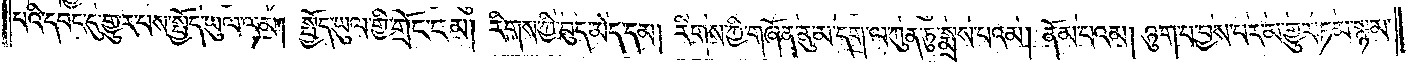པའི་དབང་དུ་གྱུར་པས་སྤྱོད་ཡུལ་ལམ། སྤྱོད་ཡུལ་གྱི་གྲོང་ངམ། རིགས་ཀྱི་བུད་མེད་དམ། རིགས་ཀྱི་གཞོན་ནུ་མ་དག་ལ་ཀུན་ཏུ་སྨྲས་པའམ། ནོམ་པའམ། ཉུག་པ་བྱས་པར་མ་གྱུར་ཏམ་སྙམ་
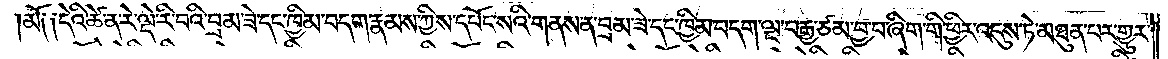མོ༏ ༏དེའི་ཚེ་ན་རེ་ལྡེ་རི་བའི་བྲམ་ཟེ་དང་ཁྱིམ་བདག་རྣམས་ཀྱིས་དཔོང་སའི་གནས་ན་བྲམ་ཟེ་དང་ཁྱིམ་བདག་ལྔ་བརྒྱ་ཙམ་བྱ་བ་ཞིག་གི་ཕྱིར་འདུས་ཏེ་མཐུན་པར་གྱུར་
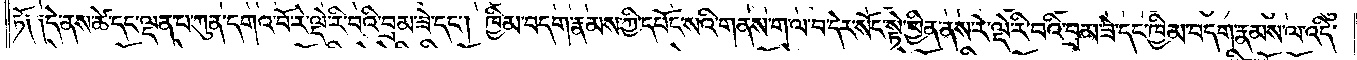ཏོ༑ ༑དེ་ནས་ཚེ་དང་ལྡན་པ་ཀུན་དགའ་བོ་རེ་ལྡེ་རི་བའི་བྲམ་ཟེ་དང༌། ཁྱིམ་བདག་རྣམས་ཀྱི་དཔོང་སའི་གནས་ག་ལ་བ་དེར་སོང་སྟེ་ཕྱིན་ནས་རེ་ལྡེ་རི་བའི་བྲམ་ཟེ་དང་ཁྱིམ་བདག་རྣམས་ལ་འདི་
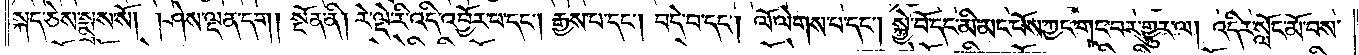སྐད་ཅེས་སྨྲས་སོ། །ཤེས་ལྡན་དག། སྔོན་ནི། རེ་ལྡེ་རི་འདི་འབྱོར་བ་དང༌། རྒྱས་པ་དང༌། བདེ་བ་དང༌། ལོ་ལེགས་པ་དང༌། སྐྱེ་བོ་དང་མི་མང་པོས་ཀྱང་གང་བར་གྱུར་ལ། འདིར་སློང་མོ་བས་
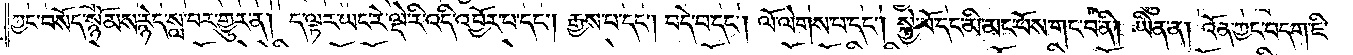ཀྱང་བསོད་སྙོམས་རྙེད་སླ་བར་གྱུར་ན། ད་ལྟར་ཡང་རེ་ལྡེ་རི་འདི་འབྱོར་བ་དང༌། རྒྱས་པ་དང༌། བདེ་བ་དང༌། ལོ་ལེགས་པ་དང༌། སྐྱེ་བོ་དང་མི་མང་པོས་གང་བ་ནི། ཡིན་ན། འོན་ཀྱང་བདག་ཇི་
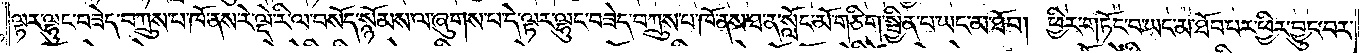ལྟར་ལྷུང་བཟེད་བཀྲུས་པ་ཁོ་ནས་རེ་ལྡེ་རི་ལ་བསོད་སྙོམས་ལ་ཞུགས་པ་དེ་ལྟར་ལྷུང་བཟེད་བཀྲུས་པ་ཁོ་ནས་ཐ་ན་སློང་མོ་གཅིག་སྦྱིན་པ་ཡང་མ་ཐོབ། ཕྱིར་གཏོང་བ་ཡང་མ་ཐོབ་པར་ཕྱིར་བྱུང་བར་
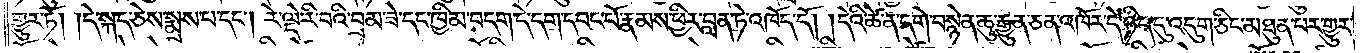གྱུར་ཏོ། །དེ་སྐད་ཅེས་སྨྲས་པ་དང༌། རེ་ལྡེ་རི་བའི་བྲམ་ཟེ་དང་ཁྱིམ་བདག་དེ་དག་དབང་པོ་རྣམས་ཕྱིར་བླན་ཏེ་འཁོད་དོ། །དེའི་ཚེ་ན་དགེ་བསྙེན་ཆུ་རྒྱུན་ཅན་འཁོར་དེ་ཉིད་དུ་འདུག་ཅིང་མཐུན་པར་གྱུར་
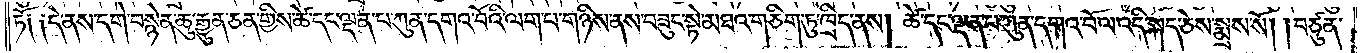ཏོ༏ ༏དེ་ནས་དགེ་བསྙེན་ཆུ་རྒྱུན་ཅན་གྱིས་ཚེ་དང་ལྡན་པ་ཀུན་དགའ་བོའི་ལག་པ་གཉིས་ནས་བཟུང་སྟེ་མཐའ་གཅིག་ཏུ་ཁྲིད་ནས། ཚེ་དང་ལྡན་པ་ཀུན་དགའ་བོ་ལ་འདི་སྐད་ཅེས་སྨྲས་སོ། །བཙུན་
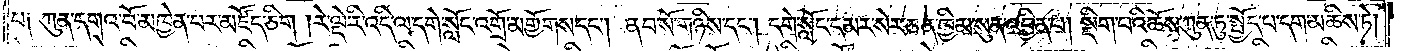པ༏ ཀུན་དགའ་བོ་མཁྱེན་པར་མཛོད་ཅིག །རེ་ལྡེ་རི་འདི་ལ་དགེ་སློང་འགྲོ་མགྱོགས་དང༌། ནབ་སོ་གཉིས་དང༌། དགེ་སློང་དམར་སེར་ཅན་ཁྱིམ་སུན་འབྱིན་པ། སྡིག་པའི་ཆོས་ཀུན་ཏུ་སྤྱོད་པ་དག་མཆིས་ཏེ།
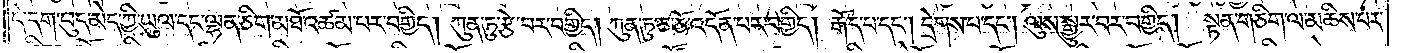དེ་དག་བུད་མེད་ཀྱི་ཡུལ་དང་ལྷན་ཅིག་མཐོ་འཚམ་པར་བགྱིད། ཀུན་ཏུ་རྩེ་བར་བགྱིད། ཀུན་ཏུ་ཅ་ཅོ་འདོན་པར་བགྱིད། རྒོད་པ་དང༌། དྲེགས་པ་དང༌། ལུས་སྒྱུར་བར་བགྱིད། སྟན་གཅིག་ལ་མཆིས་པར་
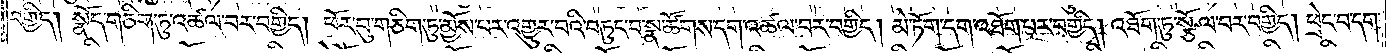བགྱིད། སྣོད་གཅིག་ཏུ་འཚལ་བར་བགྱིད། ཕོར་བུ་གཅིག་ཏུ་མྱོས་པར་འགྱུར་བའི་བཏུང་བ་སྣ་ཚོགས་དག་འཚལ་བར་བགྱིད། མེ་ཏོག་དག་འཐོག་པར་བགྱིད། འཐོག་ཏུ་སྩོལ་བར་བགྱིད། ཕྲེང་བ་དག་
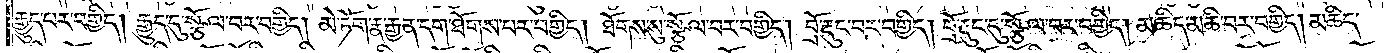རྒྱུད་པར་བགྱིད། རྒྱུད་དུ་སྩོལ་བར་བགྱིད། མེ་ཏོག་རྣ་རྒྱན་དག་ཐོགས་པར་བགྱིད། ཐོགས་སུ་སྩོལ་བར་བགྱིད། བྲོ་རྡུང་བར་བགྱིད། བྲོ་རྡུང་དུ་སྩོལ་བར་བགྱིད། མཆིད་མཆི་བར་བགྱིད། མཆིད་
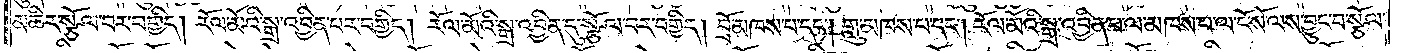མཆིར་སྩོལ་བར་བགྱིད། རོལ་མོའི་སྒྲ་འབྱིན་པར་བགྱིད། རོལ་མོའི་སྒྲ་འབྱིན་དུ་སྩོལ་བར་བགྱིད། བྲོ་མཁས་པ་དང༌། གླུ་མཁས་པ་དང༌། རོལ་མོའི་སྒྲ་འབྱིན་པ་ལ་མཁས་པ་ལ་ངོ་སོ་ལས་བྱུང་བ་སྩོལ་
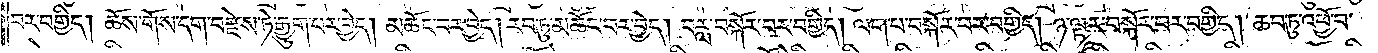བར་བགྱིད། ཆོས་གོས་དག་བརྫེས་ཏེ་རྒྱུག་པར་བྱེད། མཆོང་བར་བྱེད། རབ་ཏུ་མཆོང་བར་བྱེད། བརླ་བསྐོར་བར་བགྱིད། ལག་པ་བསྐོར་བར་བགྱིད། ཉ་ལྟར་བསྐོར་བར་བགྱིད། ཆབ་ཏུ་འཕྱོ་བ་
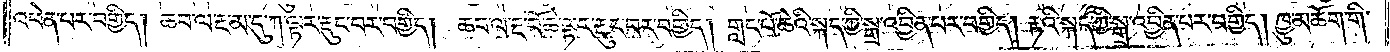འཕེན་པར་བགྱིད། ཆབ་ལ་རྔ་མ་དུ་ཀ་ལྟར་རྡུང་བར་བགྱིད། ཆབ་ལ་རྔ་པོ་ཆེ་ལྟར་རྡུང་བར་བགྱིད། གླང་པོ་ཆེའི་སྐད་ཀྱི་སྒྲ་འབྱིན་པར་བགྱིད། རྟའི་སྐད་ཀྱི་སྒྲ་འབྱིན་པར་བགྱིད། ཁྱུ་མཆོག་གི་
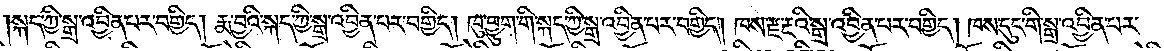སྐད་ཀྱི་སྒྲ་འབྱིན་པར་བགྱིད། རྨ་བྱའི་སྐད་ཀྱི་སྒྲ་འབྱིན་པར་བགྱིད། ཁུ་བྱུག་གི་སྐད་ཀྱི་སྒྲ་འབྱིན་པར་བགྱིད། ཁས་རྫ་རྔའི་སྒྲ་འབྱིན་པར་བགྱིད། ཁས་དུང་གི་སྒྲ་འབྱིན་པར་
